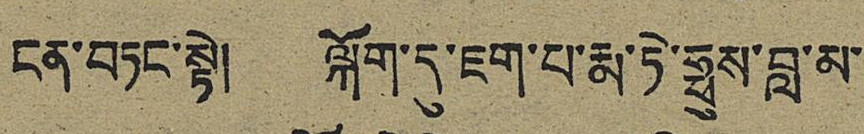ངན་བཏང་སྟེ། ལྐོག་དུ་ཇག་པ་རྨ་ཏེ་ཧྥུས་བླ་མ་
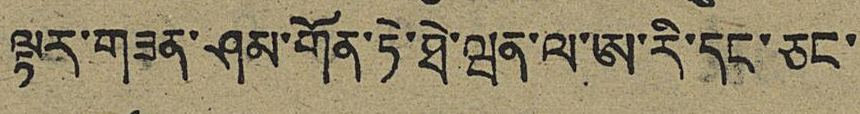ལྟར་གཟན་ཤམ་གོན་ཏེ་ཐེ་ཝན་ལ་ཨ་རི་དང་ཅང་
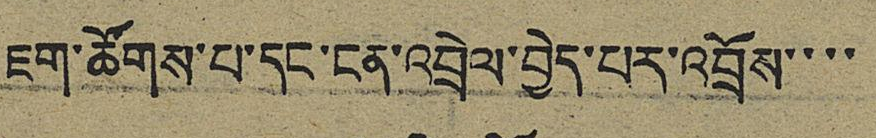ཇག་ཚོགས་པ་དང་ངན་འབྲེལ་བྱེད་པར་འབྲོས་་་་
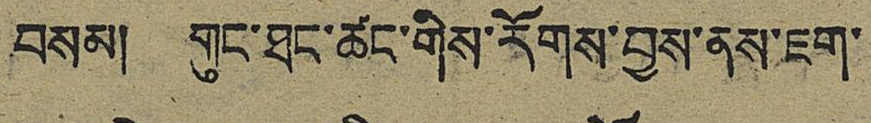བསམ། གུང་ཐང་ཚང་གིས་རོགས་བྱས་ནས་ཇག་
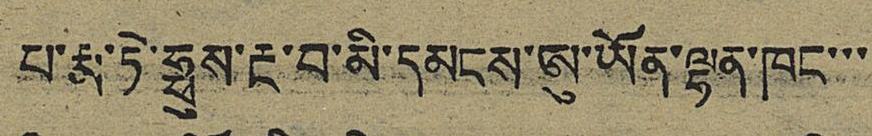པ་རྨ་ཏེ་ཧྥུས་རྔ་བ་མི་དམངས་ཨུ་ཡོན་ལྷན་ཁང་་་
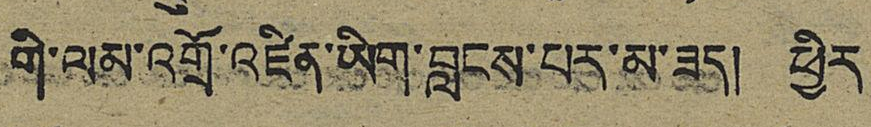གི་ལམ་འགྲོ་འཛིན་ཡིག་བླངས་པར་མ་ཟད། ཕྱིར
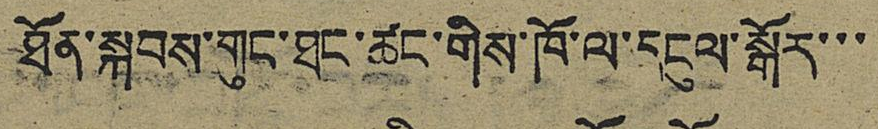ཐོན་སྐབས་གུང་ཐུང་ཚང་གིས་ཁོ་ལ་དངུལ་སྒོར་་་
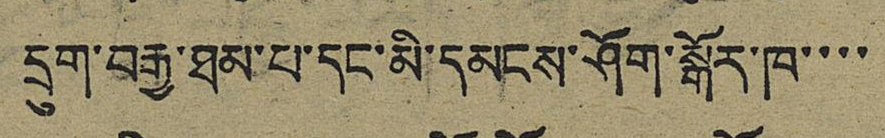དྲུག་བརྒྱ་ཐམ་པ་དང་མི་དམངས་ཤོག་སྒོར་ཁ་་་་
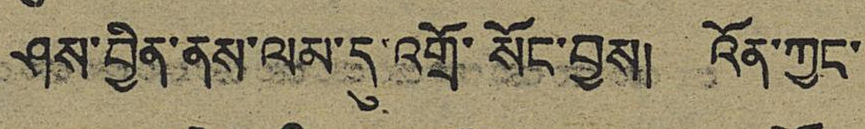ཤས་བྱིན་ནས་ལམ་དུ་འགྲོ་སོང་བྱས། འོན་ཀྱང་
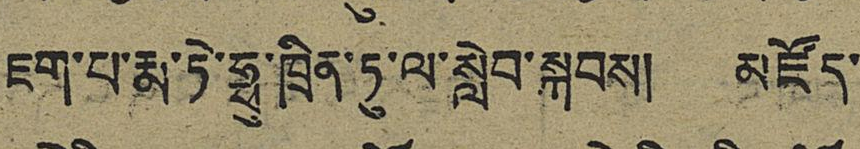ཇག་པ་རྨ་ཏེ་ཧྥུ་ཁྲིན་ཏུ་ལ་སླེབ་སྐབས། མཛོད་
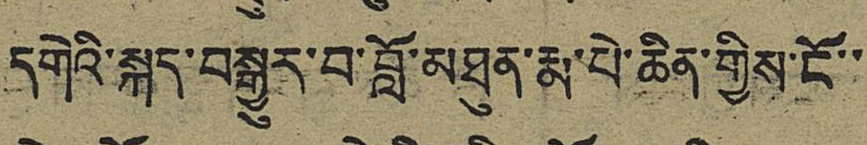དགེའི་སྐད་བསྒྱུར་བ་བློ་མཐུན་རྨ་པེ་ཆིན་གྱིས་ངོ་་
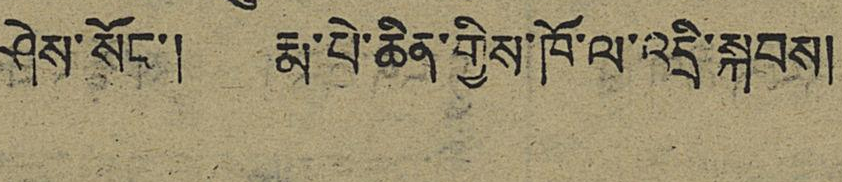ཤེས་སོང་། རྨ་པེ་ཆིན་གྱིས་ཁོ་ལ་འདྲི་སྐབས།
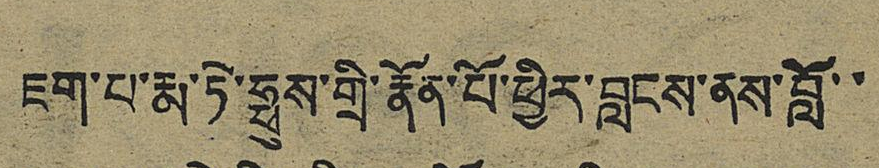ཇག་པ་རྨ་ཏེ་ཧྥུས་གྲི་རྣོན་པོ་ཕྱིར་བླངས་ནས་བློ་་
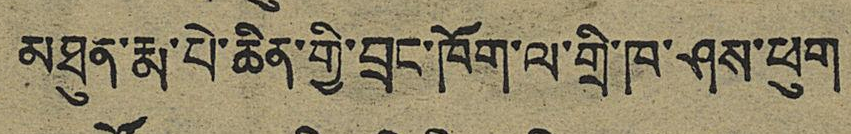མཐུན་རྨ་པེ་ཆིན་གྱི་བྲང་ཁོག་ལ་གྲི་ཁ་ཤས་ཕུག
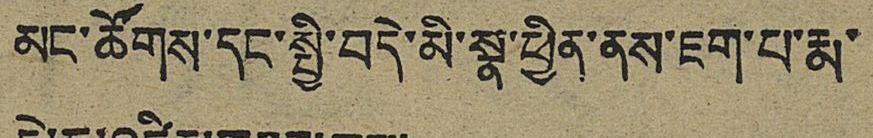མང་ཚོགས་དང་སྤྱི་བདེ་མི་སྣ་ཕྱིན་ནས་ཇག་པ་རྨ་
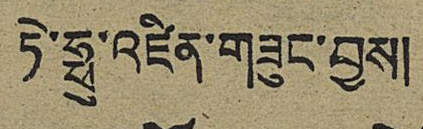ཏེ་ཧྥུ་འཛིན་གཟུང་བྱས།
